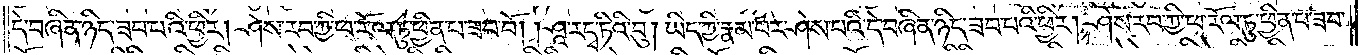དེ་བཞིན་ཉིད་ཟབ་པའི་ཕྱིར། ཤེས་རབ་ཀྱི་ཕ་རོལ་ཏུ་ཕྱིན་པ་ཟབ་བོ། །ཤཱ་རདྭ་ཏིའི་བུ། ཡིད་ཀྱི་རྣམ་པར་ཤེས་པའི་དེ་བཞིན་ཉིད་ཟབ་པའི་ཕྱིར། ཤེས་རབ་ཀྱི་ཕ་རོལ་ཏུ་ཕྱིན་པ་ཟབ་
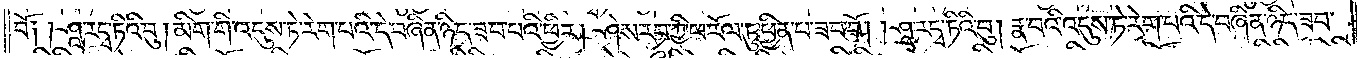བོ༑ ༑ཤཱ་རདྭ་ཏིའི་བུ། མིག་གི་འདུས་ཏེ་རེག་པའི་དེ་བཞིན་ཉིད་ཟབ་པའི་ཕྱིར། ཤེས་རབ་ཀྱི་ཕ་རོལ་ཏུ་ཕྱིན་པ་ཟབ་བོ། །ཤཱ་རདྭ་ཏིའི་བུ། རྣ་བའི་འདུས་ཏེ་རེག་པའི་དེ་བཞིན་ཉིད་ཟབ་
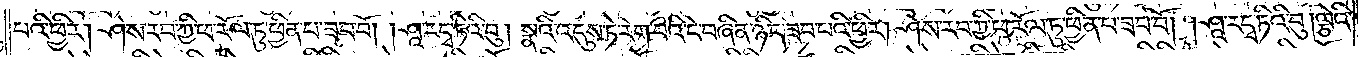པའི་ཕྱིར། ཤེས་རབ་ཀྱི་ཕ་རོལ་ཏུ་ཕྱིན་པ་ཟབ་བོ། །ཤཱ་རདྭ་ཏིའི་བུ། སྣའི་འདུས་ཏེ་རེག་པའི་དེ་བཞིན་ཉིད་ཟབ་པའི་ཕྱིར། ཤེས་རབ་ཀྱི་ཕ་རོལ་ཏུ་ཕྱིན་པ་ཟབ་བོ། །ཤཱ་རདྭ་ཏིའི་བུ། ལྕེའི་
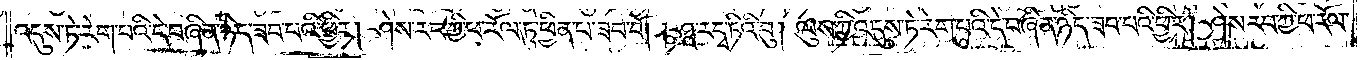འདུས་ཏེ་རེག་པའི་དེ་བཞིན་ཉིད་ཟབ་པའི་ཕྱིར། ཤེས་རབ་ཀྱི་ཕ་རོལ་ཏུ་ཕྱིན་པ་ཟབ་བོ། །ཤཱ་རདྭ་ཏིའི་བུ། ལུས་ཀྱི་འདུས་ཏེ་རེག་པའི་དེ་བཞིན་ཉིད་ཟབ་པའི་ཕྱིར། ཤེས་རབ་ཀྱི་ཕ་རོལ་
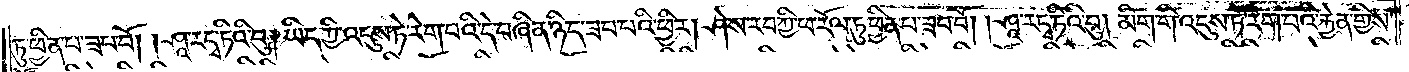ཏུ་ཕྱིན་པ་ཟབ་བོ། །ཤཱ་རདྭ་ཏིའི་བུ། ཡིད་ཀྱི་འདུས་ཏེ་རེག་པའི་དེ་བཞིན་ཉིད་ཟབ་པའི་ཕྱིར། ཤེས་རབ་ཀྱི་ཕ་རོལ་ཏུ་ཕྱིན་པ་ཟབ་བོ། །ཤཱ་རདྭ་ཏིའི་བུ། མིག་གི་འདུས་ཏེ་རེག་པའི་རྐྱེན་གྱིས་
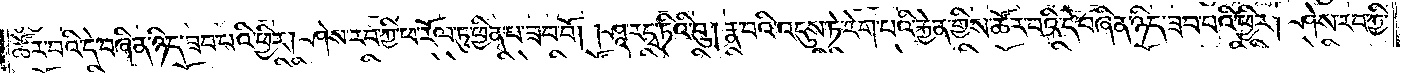ཚོར་བའི་དེ་བཞིན་ཉིད་ཟབ་པའི་ཕྱིར། ཤེས་རབ་ཀྱི་ཕ་རོལ་ཏུ་ཕྱིན་པ་ཟབ་བོ། །ཤཱ་རདྭ་ཏིའི་བུ། རྣ་བའི་འདུས་ཏེ་རེག་པའི་རྐྱེན་གྱིས་ཚོར་བའི་དེ་བཞིན་ཉིད་ཟབ་པའི་ཕྱིར། ཤེས་རབ་ཀྱི་
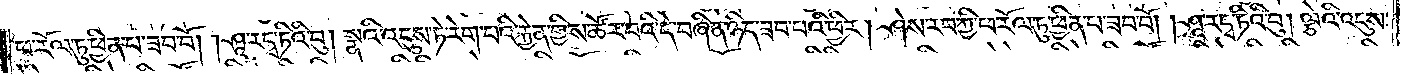ཕ་རོལ་ཏུ་ཕྱིན་པ་ཟབ་བོ། །ཤཱ་རདྭ་ཏིའི་བུ། སྣའི་འདུས་ཏེ་རེག་པའི་རྐྱེན་གྱིས་ཚོར་བའི་དེ་བཞིན་ཉིད་ཟབ་པའི་ཕྱིར། ཤེས་རབ་ཀྱི་ཕ་རོལ་ཏུ་ཕྱིན་པ་ཟབ་བོ། །ཤཱ་རདྭ་ཏིའི་བུ། ལྕེའི་འདུས་
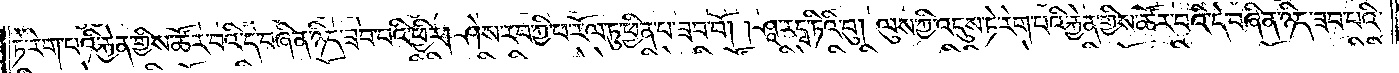ཏེ་རེག་པའི་རྐྱེན་གྱིས་ཚོར་བའི་དེ་བཞིན་ཉིད་ཟབ་པའི་ཕྱིར། ཤེས་རབ་ཀྱི་ཕ་རོལ་ཏུ་ཕྱིན་པ་ཟབ་བོ། །ཤཱ་རདྭ་ཏིའི་བུ། ལུས་ཀྱི་འདུས་ཏེ་རེག་པའི་རྐྱེན་གྱིས་ཚོར་བའི་དེ་བཞིན་ཉིད་ཟབ་པའི་
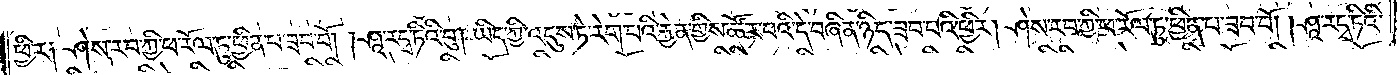ཕྱིར༑ ཤེས་རབ་ཀྱི་ཕ་རོལ་ཏུ་ཕྱིན་པ་ཟབ་བོ། །ཤཱ་རདྭ་ཏིའི་བུ། ཡིད་ཀྱི་འདུས་ཏེ་རེག་པའི་རྐྱེན་གྱིས་ཚོར་བའི་དེ་བཞིན་ཉིད་ཟབ་པའི་ཕྱིར། ཤེས་རབ་ཀྱི་ཕ་རོལ་ཏུ་ཕྱིན་པ་ཟབ་བོ། །ཤཱ་རདྭ་ཏིའི་
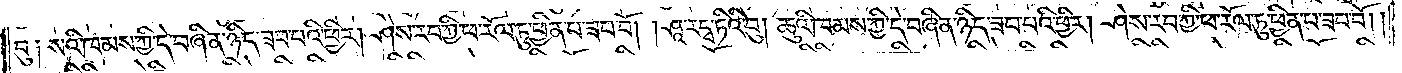བུ༑ སའི་ཁམས་ཀྱི་དེ་བཞིན་ཉིད་ཟབ་པའི་ཕྱིར། ཤེས་རབ་ཀྱི་ཕ་རོལ་ཏུ་ཕྱིན་པ་ཟབ་བོ། །ཤཱ་ར་དྭ་ཏིའི་བུ། ཆུའི་ཁམས་ཀྱི་དེ་བཞིན་ཉིད་ཟབ་པའི་ཕྱིར། ཤེས་རབ་ཀྱི་ཕ་རོལ་ཏུ་ཕྱིན་པ་ཟབ་བོ། །
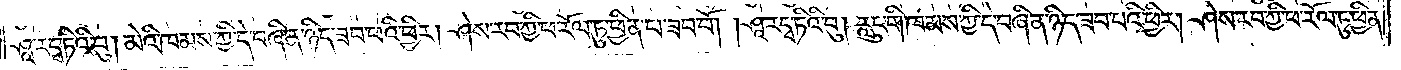ཤཱ་ར་དྭ་ཏིའི་བུ། མེའི་ཁམས་ཀྱི་དེ་བཞིན་ཉིད་ཟབ་པའི་ཕྱིར། ཤེས་རབ་ཀྱི་ཕ་རོལ་ཏུ་ཕྱིན་པ་ཟབ་བོ། །ཤཱ་ར་དྭ་ཏིའི་བུ། རླུང་གི་ཁམས་ཀྱི་དེ་བཞིན་ཉིད་ཟབ་པའི་ཕྱིར། ཤེས་རབ་ཀྱི་ཕ་རོལ་ཏུ་ཕྱིན་
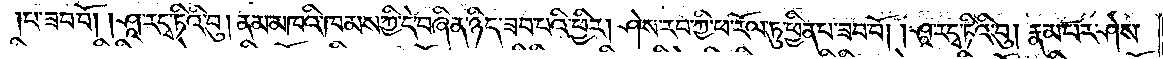པ་ཟབ་བོ། །ཤཱ་ར་དྭ་ཏིའི་བུ། ནམ་མཁའི་ཁམས་ཀྱི་དེ་བཞིན་ཉིད་ཟབ་པའི་ཕྱིར། ཤེས་རབ་ཀྱི་ཕ་རོལ་ཏུ་ཕྱིན་པ་ཟབ་བོ། །ཤཱ་ར་དྭ་ཏིའི་བུ། རྣམ་པར་ཤེས་
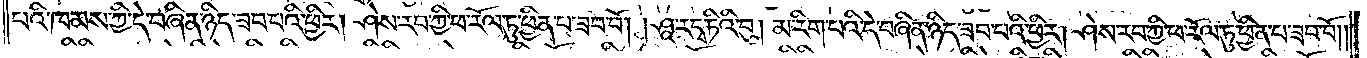པའི་ཁམས་ཀྱི་དེ་བཞིན་ཉིད་ཟབ་པའི་ཕྱིར། ཤེས་རབ་ཀྱི་ཕ་རོལ་ཏུ་ཕྱིན་པ་ཟབ་བོ། །ཤཱ་ར་དྭ་ཏིའི་བུ། མ་རིག་པའི་དེ་བཞིན་ཉིད་ཟབ་པའི་ཕྱིར། ཤེས་རབ་ཀྱི་ཕ་རོལ་ཏུ་ཕྱིན་པ་ཟབ་བོ། །
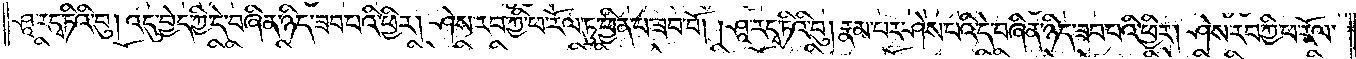ཤཱ་ར་དྭ་ཏིའི་བུ། འདུ་བྱེད་ཀྱི་དེ་བཞིན་ཉིད་ཟབ་པའི་ཕྱིར། ཤེས་རབ་ཀྱི་ཕ་རོལ་ཏུ་ཕྱིན་པ་ཟབ་བོ། །ཤཱ་ར་དྭ་ཏིའི་བུ། རྣམ་པར་ཤེས་པའི་དེ་བཞིན་ཉིད་ཟབ་པའི་ཕྱིར། ཤེས་རབ་ཀྱི་ཕ་རོལ་
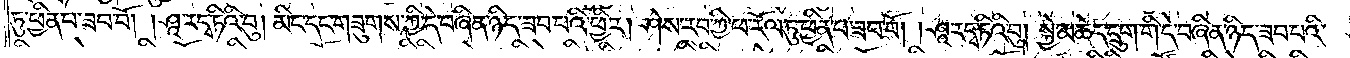ཏུ་ཕྱིན་པ་ཟབ་བོ། །ཤཱ་ར་དྭ་ཏིའི་བུ། མིང་དང་གཟུགས་ཀྱི་དེ་བཞིན་ཉིད་ཟབ་པའི་ཕྱིར། ཤེས་རབ་ཀྱི་ཕ་རོལ་ཏུ་ཕྱིན་པ་ཟབ་བོ། །ཤཱ་ར་དྭ་ཏིའི་བུ། སྐྱེ་མཆེད་དྲུག་གི་དེ་བཞིན་ཉིད་ཟབ་པའི་
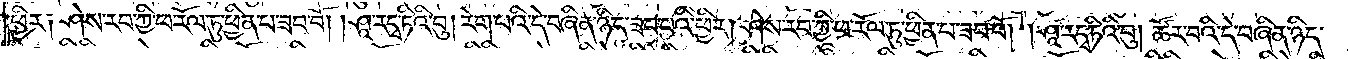ཕྱིར༑ ཤེས་རབ་ཀྱི་ཕ་རོལ་ཏུ་ཕྱིན་པ་ཟབ་བོ། །ཤཱ་ར་དྭ་ཏིའི་བུ། རེག་པའི་དེ་བཞིན་ཉིད་ཟབ་པའི་ཕྱིར། ཤེས་རབ་ཀྱི་ཕ་རོལ་ཏུ་ཕྱིན་པ་ཟབ་བོ། །ཤཱ་ར་དྭ་ཏིའི་བུ། ཚོར་བའི་དེ་བཞིན་ཉིད་
